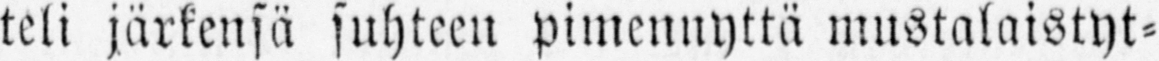teli järkensä suhteen pimennyttä mustalaistyt-
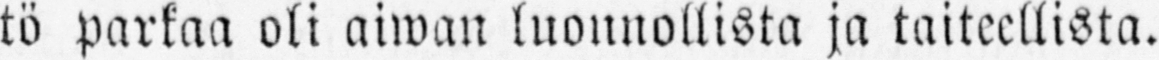tö parkaa oli aiwan luonnollista ja taiteellista.
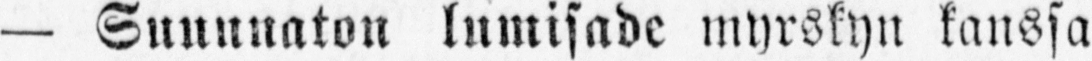— Suunnaton lumisade myrskyn kanssa
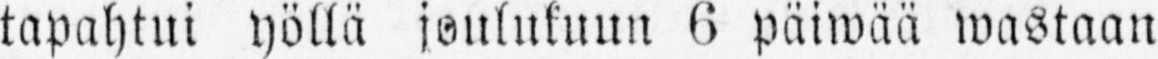tapahtui yöllä joulukuun 6 päiwää wastaan
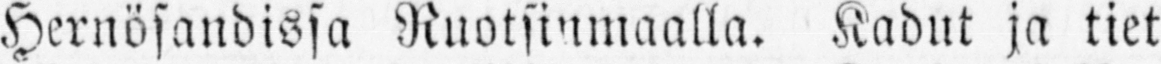Hernösandissa Ruotsinmaalla. Kadut ja tiet
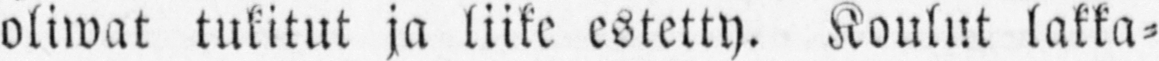oliwat tukitut ja liike estetty. Koulut lakka-
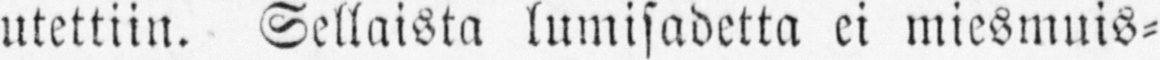utettiin. Sellaista lumisadetta ei miesmuis-
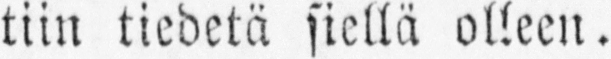tiin tiedetä siellä olleen.
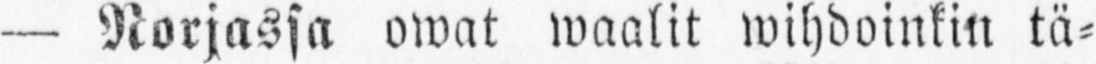— Norjassa owat waalit wihdoinkin tä-
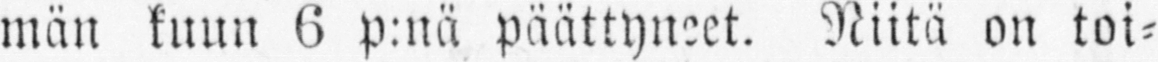män kuun 6 p:nä päättyneet. Niitä on toi-
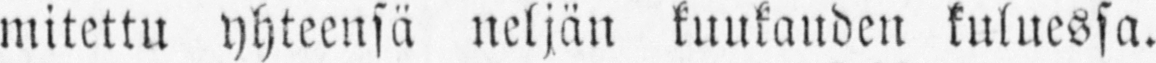mitettu yhteensä neljän kuukauden kuluessa.
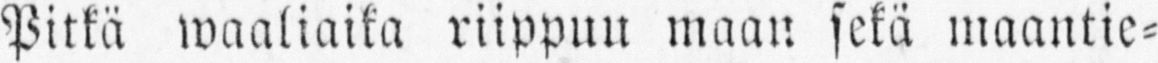Pitkä waaliaika riippuu maan sekä maantie-
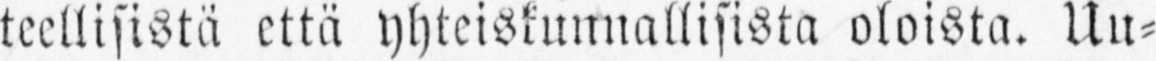teellisistä että yhteiskunnallisista oloista. Uu-
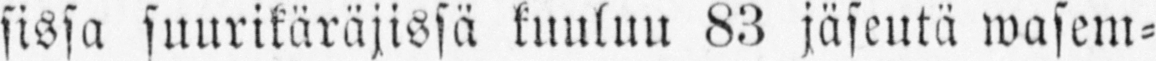sissa suurikäräjissä kuuluu 83 jäsentä wasem-
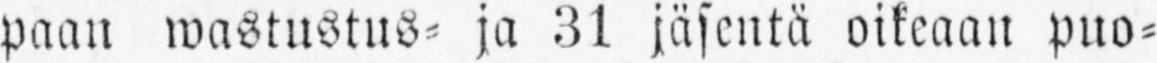paan wastustus- ja 31 jäsentä oikeaan puo-
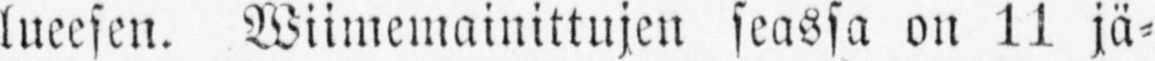lueesen. Wiimemainittujen seassa on 11 jä-
